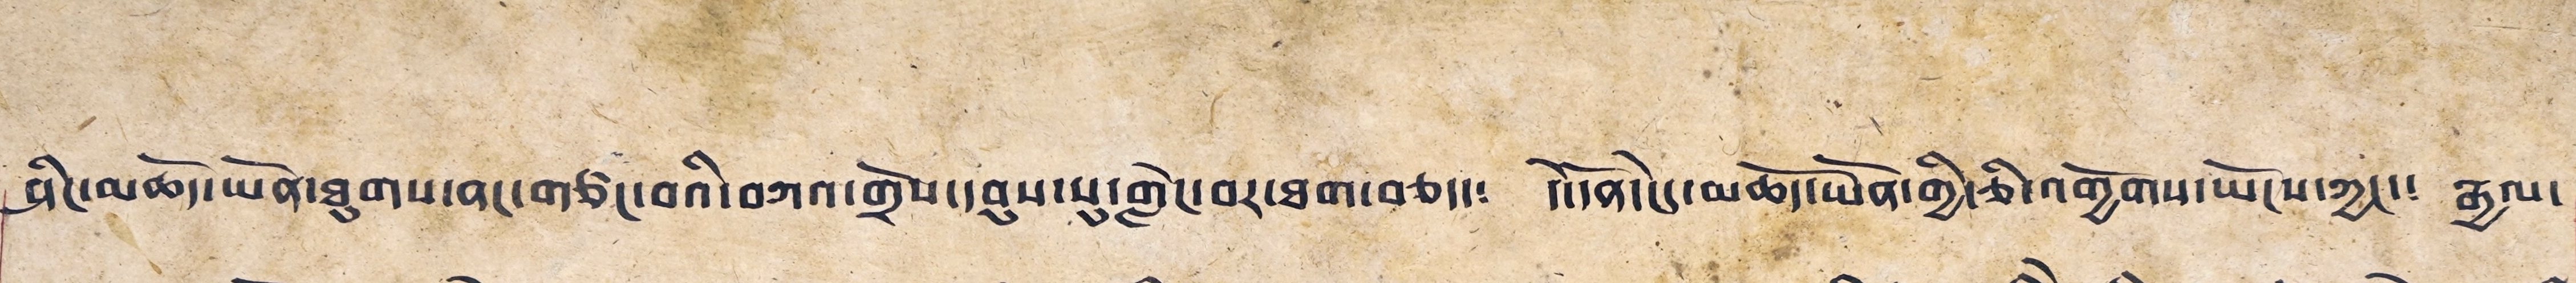ཤིང་མཆོད་ཡོན་ཐུགས་ནང་གཙང་བའི་བཀའ་གྲོས་དབུས་སུ་གླེང་བར་ཐག་བཅད་༴ དེ་དོན་ངེདུ་མཆོད་ཡོན་གྱི་ཅི་འགྱོགས་ཡོངས་ཀྱང་༴ རྒྱལ་
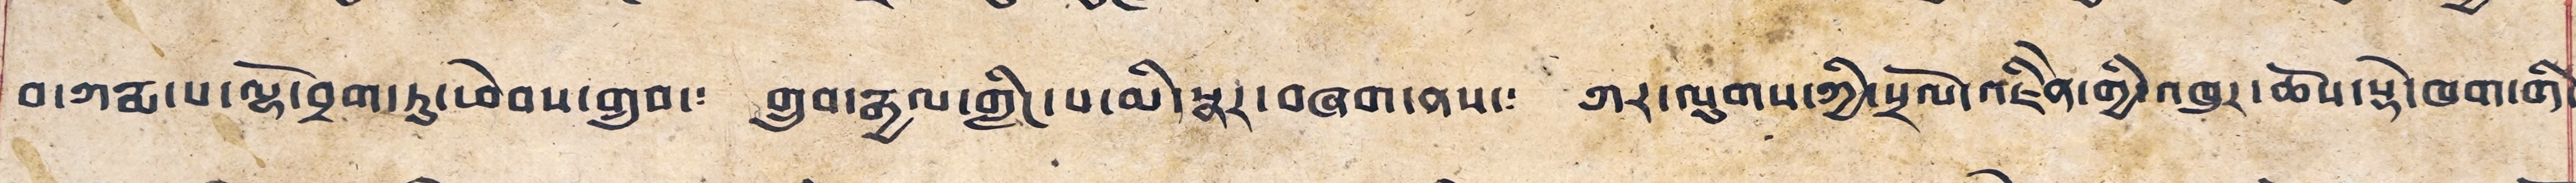བ་ཀརྨ་པ་ལྷོ་བྲག་ཏུ་ཕེབས་གྲུབ་༴ གྲུབ་རྒྱལ་གྱིང་པ་མི་སྣར་བཞག་ནས་༴ ཀར་ལུགས་ཀྱི་སྲོལ་འཇིནེ་གྱི་འཁུར་ཆོས་སྡེ་ཁག་གི་
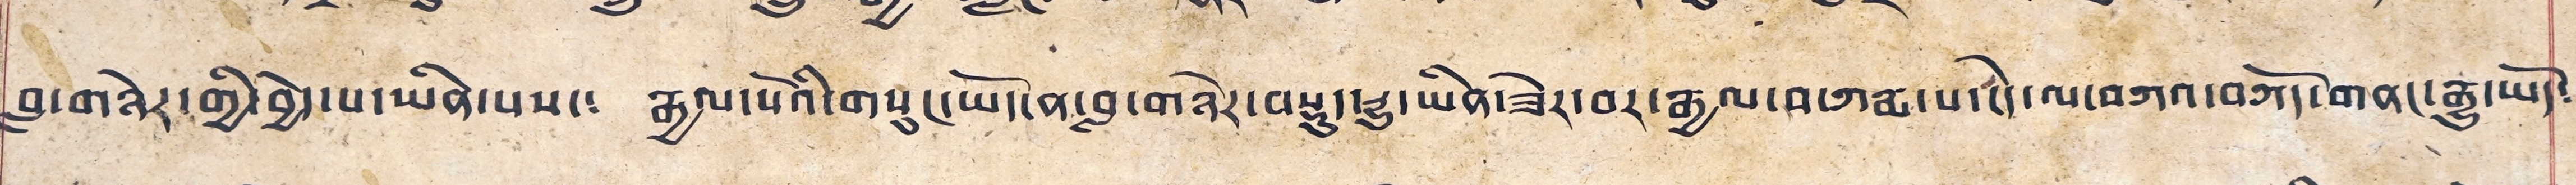བླ་གཉེར་གྱི་བྱེད་པ་ཡིན་པས་༴ རྒྱལ་པོའི་གསུང་ཡ་དོན་བླ་གཉེར་བརྡུད་རྒྱུ་ཡིན་ཟེར་བར་རྒྱལ་བ་ཀརྨ་པ་ངེད་ལ་བཀའ་བཀོད་གནང་རྒྱུ་ཡོད་
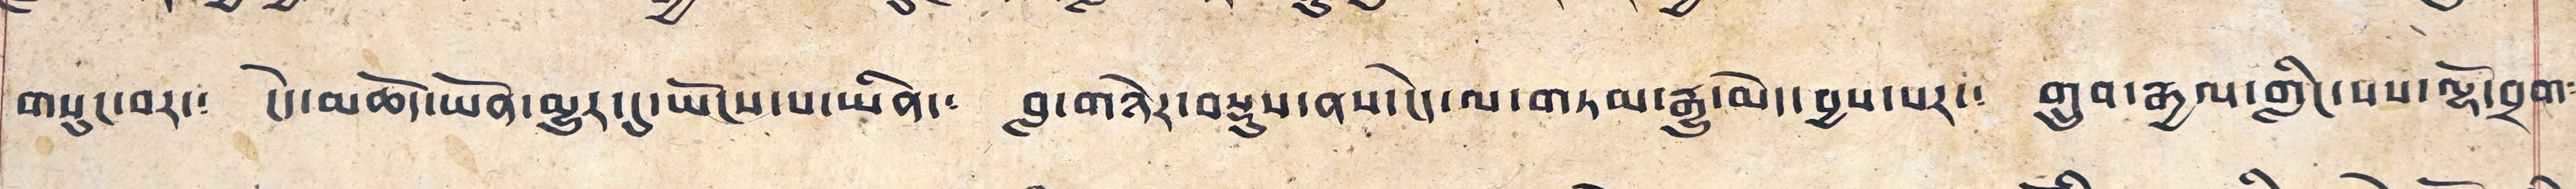གསུང་བར་༴ ངེད་མཆོད་ཡོན་མྱུར་དུ་ཡོངས་པ་ཡིན་༴ བླ་གཉེར་བརྡུས་ནས་ངེད་ལ་གཏམ་རྒྱུ་མེད་བྱས་པར་༴ གྲུབ་རྒྱལ་གླིང་པས་ལྷོ་བྲག་
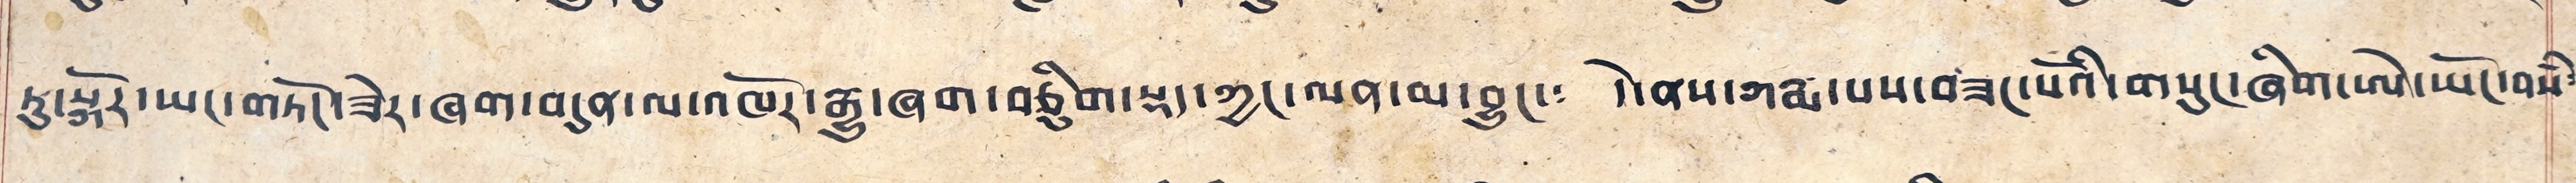ཏུ་སྐོར་ཡང་གཏོང་ཟེར་ཞག་བདུན་ལ་འཁོར་རྒྱུ་ཞག་བཅིུག་སྡད་ཀྱང་ལན་མ་བྱུང་༴ དེ་ནས་ཀརྨ་པས་བཟང་པོའི་གསུང་ཞིག་ཨེ་ཡོང་བསཾ་
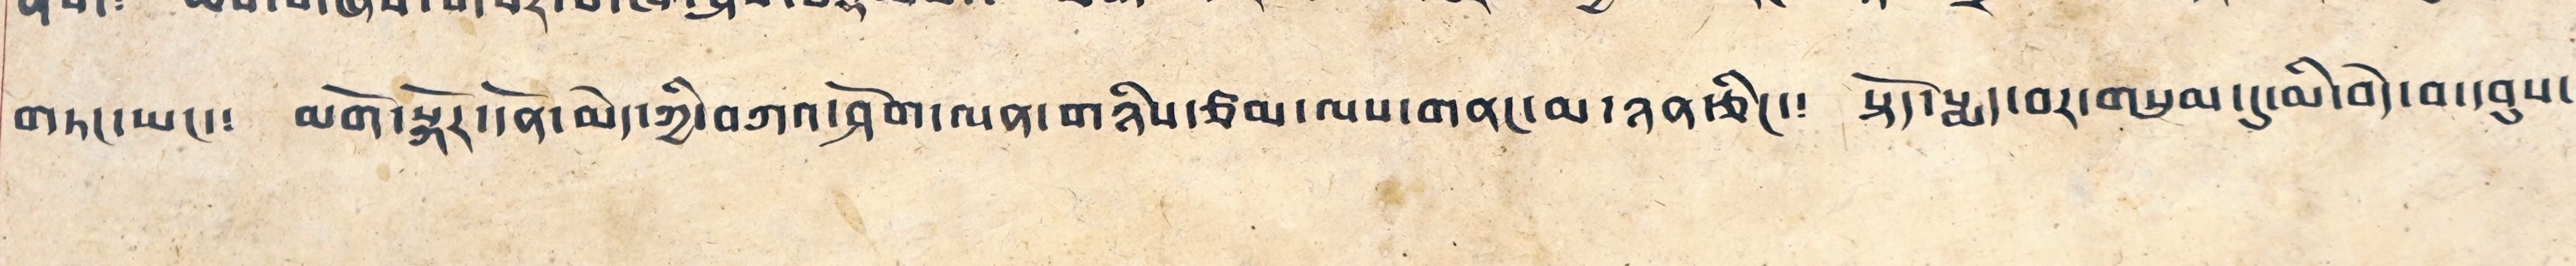གཏང་ཡང་༴ མགོ་སྐོར་དོན་མེད་ཀྱི་བཀའ་ཤོག་ལན་གཉིས་ཙམ་ལས་གནང་མ་ཉན་ཅིང་༴ སྟོད་སྨད་བར་གསུམ་དུ་མི་བདེ་བ་དབུས་
